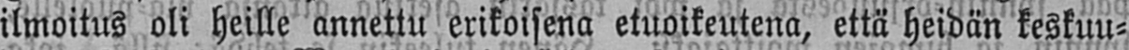ilmoitus oli heille annettu erikoisena etuoikeutena, että heidän keskuu-
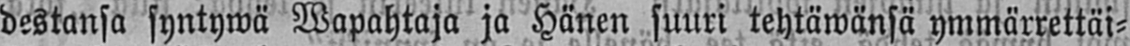destansa syntywä Wapahtaja ja Hänen suuri tehtäwänsä ymmärrettäi-
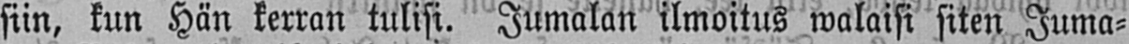siin, kun Hän kerran tulisi. Jumalan ilmoitus walaisi siten Juma-
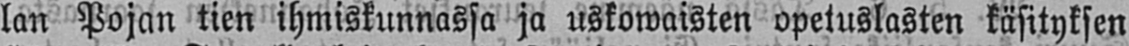lan Pojan tien ihmiskunnassa ja uskowaisten opetuslasten käsityksen
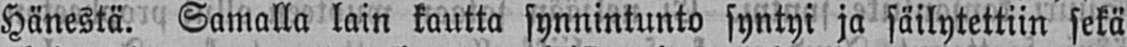Hänestä. Samalla lain kautta synnintunto syntyi ja säilytettiin sekä
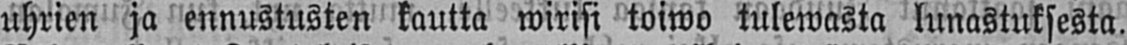uhrien ja ennustusten kautta wirisi toiwo tulewasta lunastuksesta.
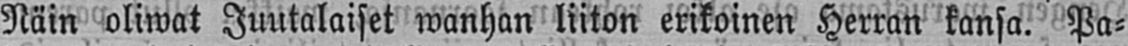Näin oliwat Juutalaiset wanhan liiton erikoinen Herran kansa. Pa-
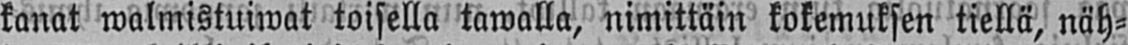kanat walmistuiwat toisella tawalla, nimittäin kokemuksen tiellä, näh-
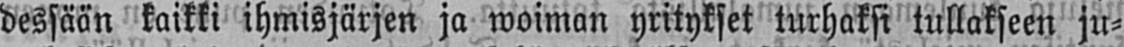dessään kaikki ihmisjärjen ja woiman yritykset turhaksi tullakseen ju-
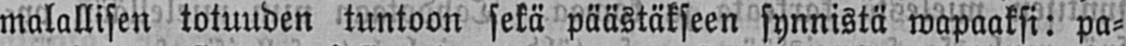malallisen totuuden tuntoon sekä päästäkseen synnistä wapaaksi: pa-
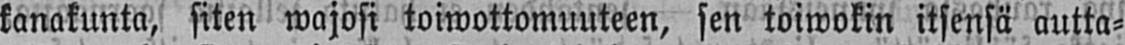kanakunta, siten wajosi toiwottomuuteen, sen toiwokin itsensä autta-
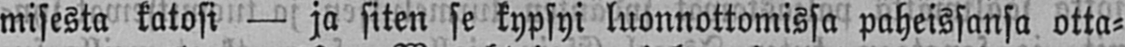misesta katosi — ja siten se kypsyi luonnottomissa paheissansa otta-
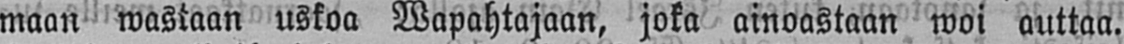maan wastaan uskoa Wapahtajaan joka ainoastaan woi auttaa.
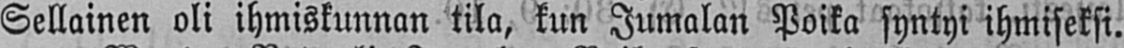Sellainen oli ihmiskunnan tila, kun Jumalan Poika syntyi ihmiseksi.
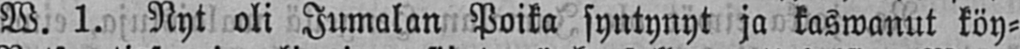W. 1. Nyt oli Jumalan Poika syntynyt ja kaswanut köy-
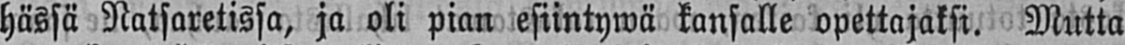hässä Natsaretissa, ja oli pian esiintywä kansalle opettajaksi. Mutta
